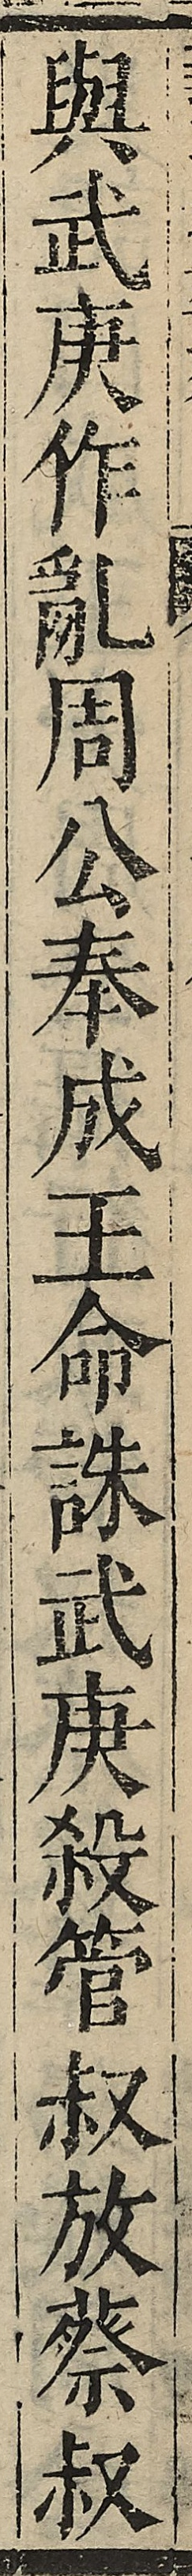與武庚作亂周公奉成王命誅武庚殺管叔放蔡叔
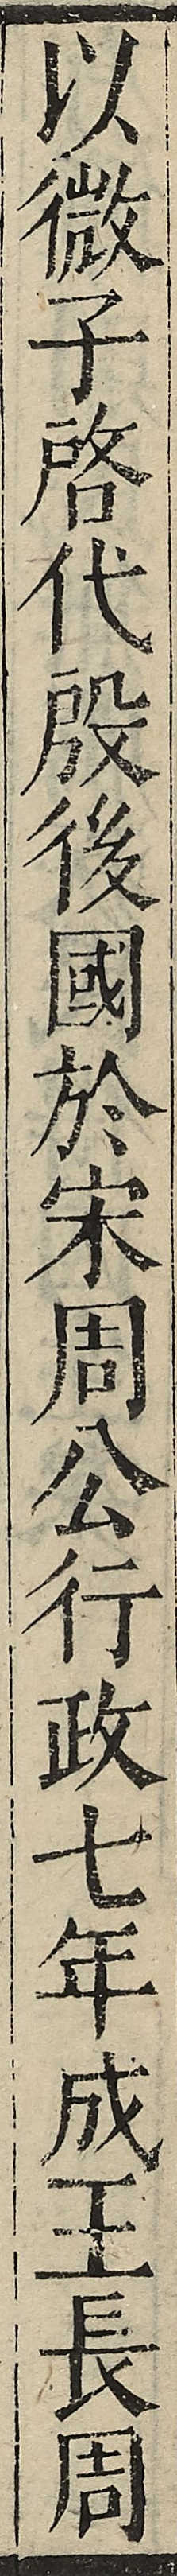以微子啟代殷後國於宋周公行政七年成王長周
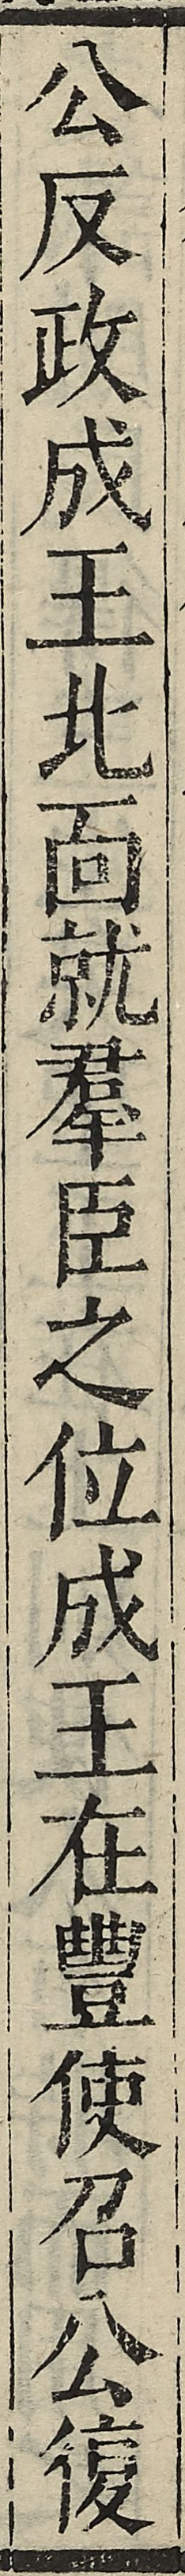公反政成王北面就羣臣之位成王在豐使召公復
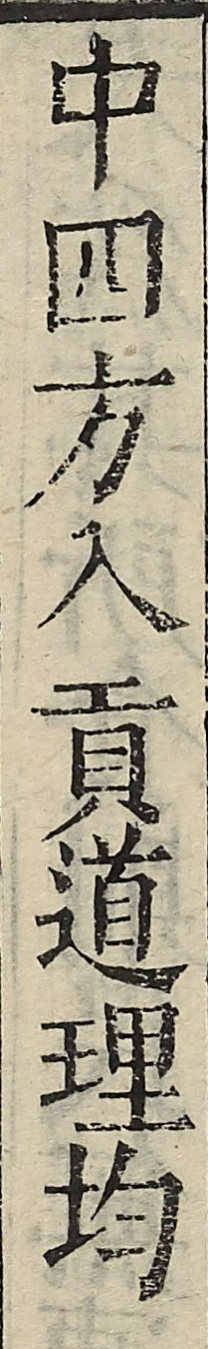中四方入貢道理均
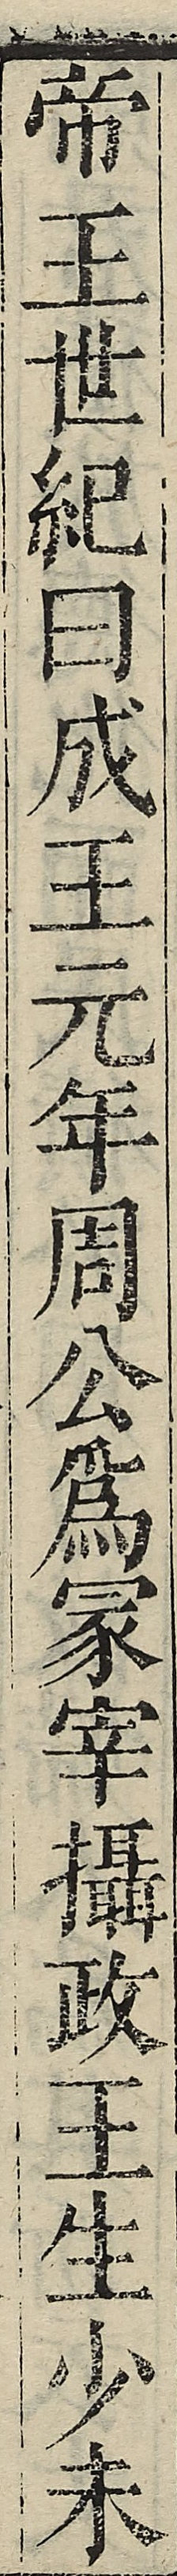帝王世紀曰成王元年周公為冢宰攝政王生少未
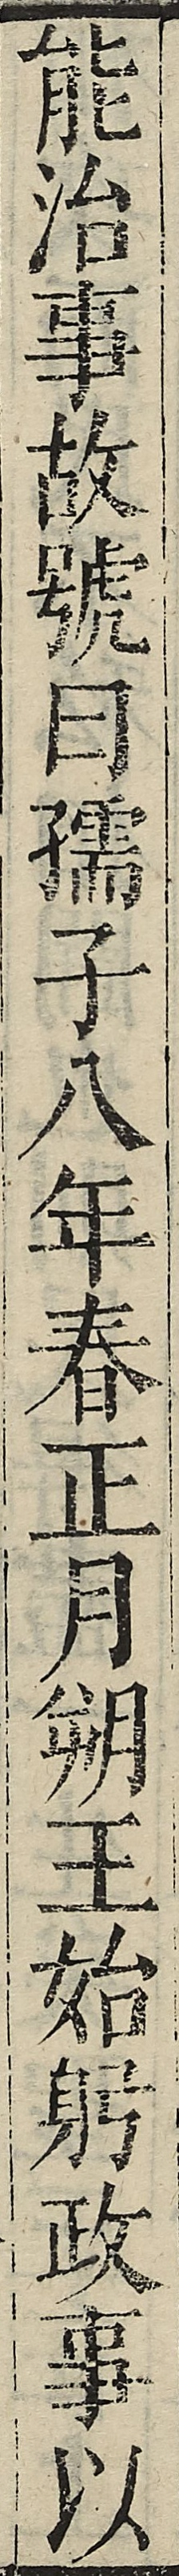能治事故號曰孺子八年春正月朔王始躬政事以
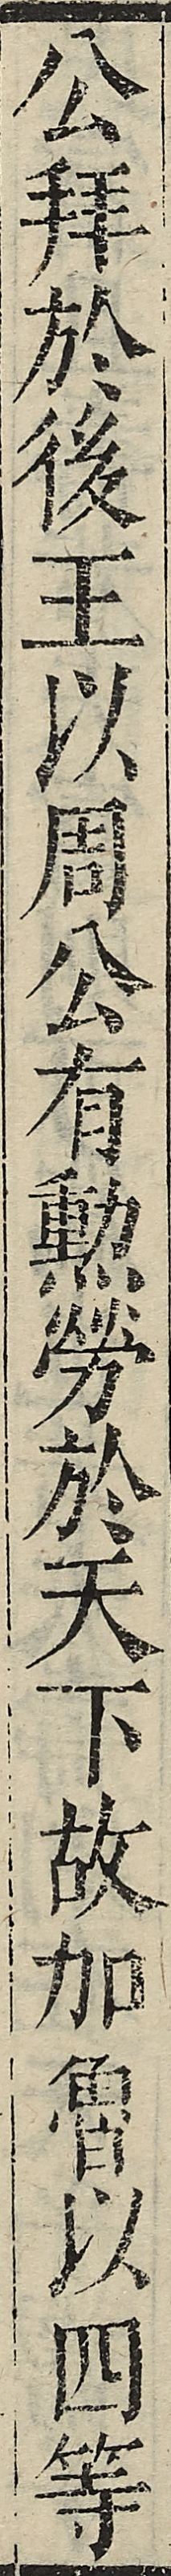公拜於後王以周公有勳勞於天下故加魯以四等
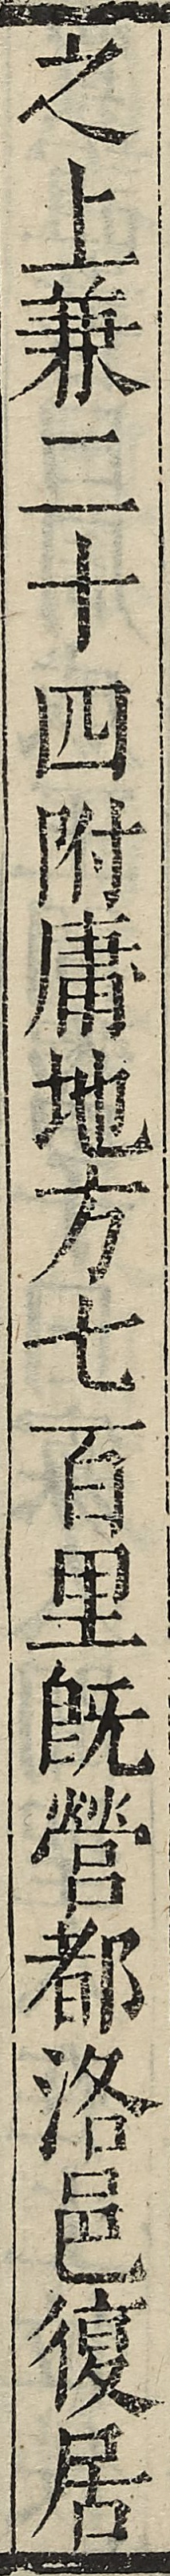之上兼二十四附庸地方七百里既營都洛邑復居
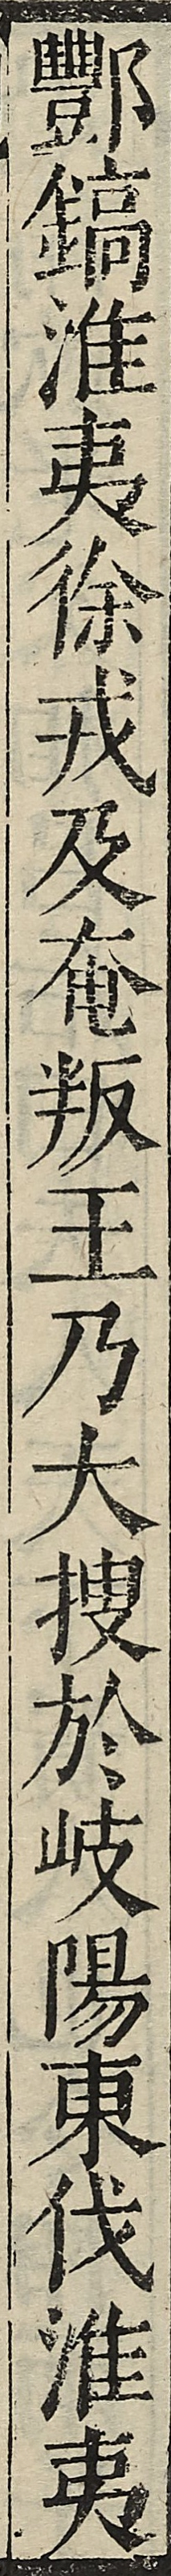酆鎬淮夷徐戎及䣍叛王乃大搜於岐陽東伐淮夷
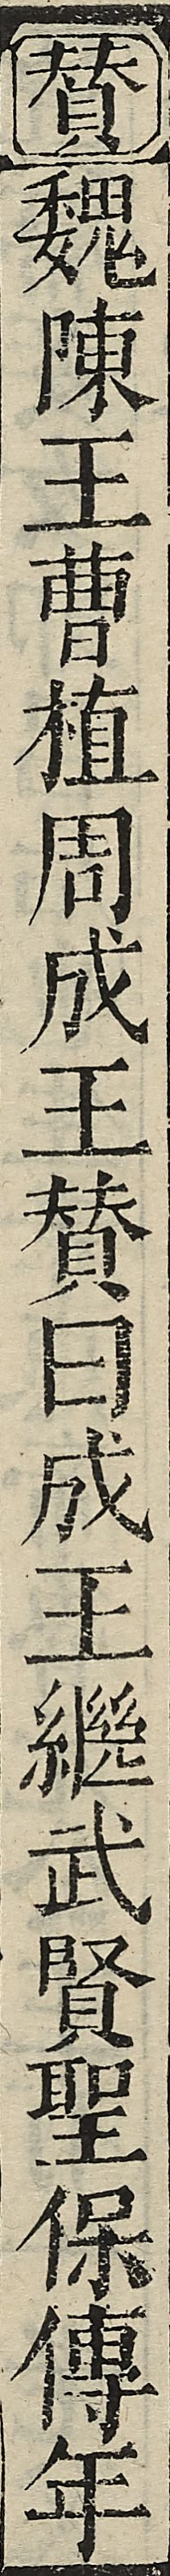贊魏陳王曹植周成王贊曰成王繼武賢聖保傅年
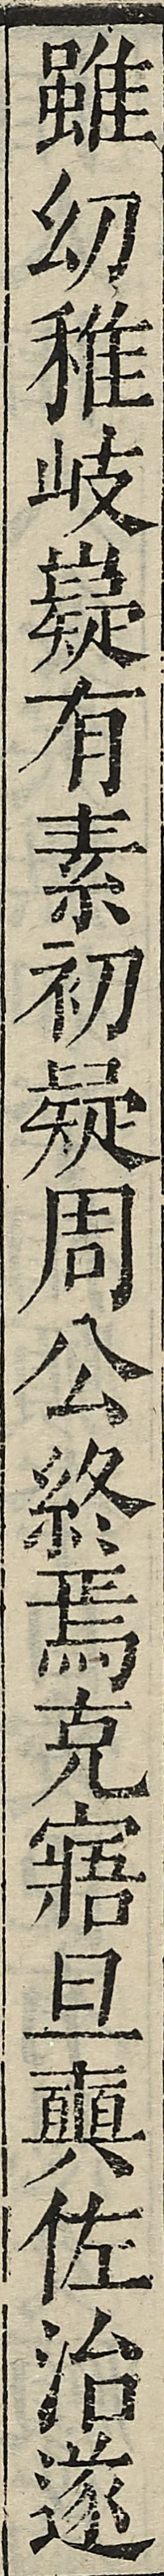雖幼稚岐嶷有素初疑周公終焉克寤旦奭佐治遂
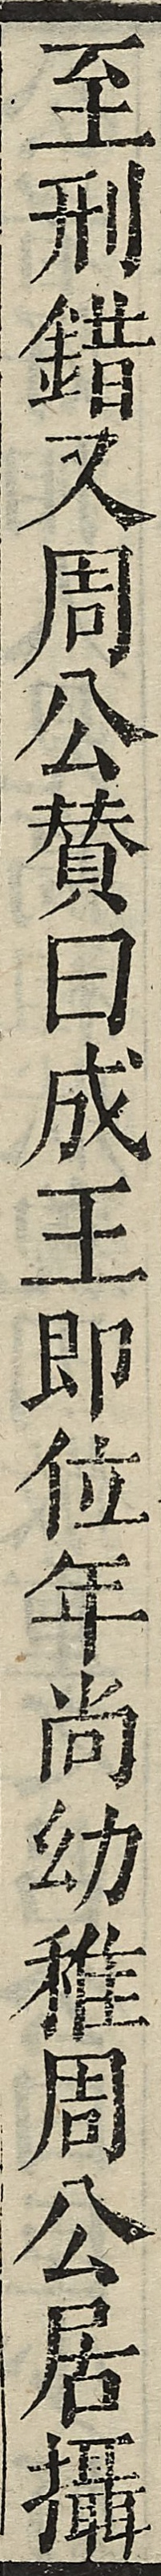至刑錯又周公贊曰成王即位年尚幼稚周公居攝
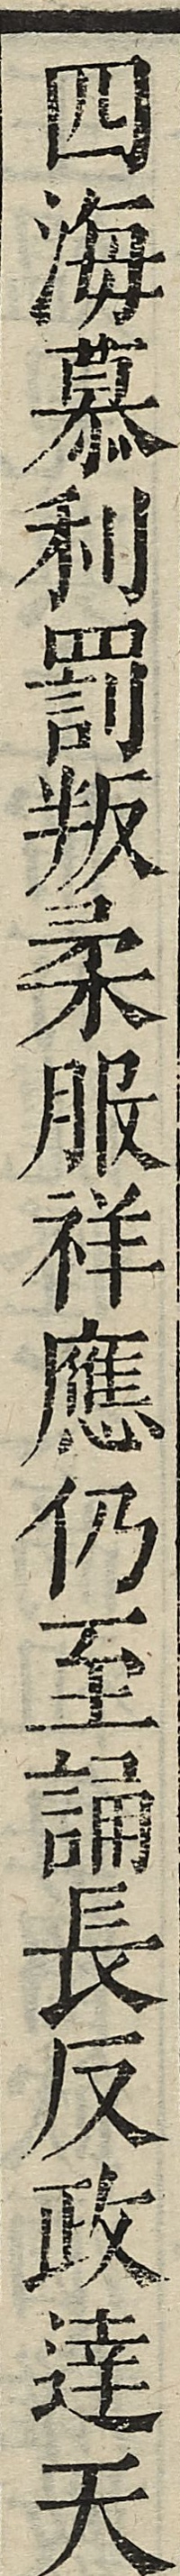四海慕利罰叛柔服祥應仍至誦長反政達天
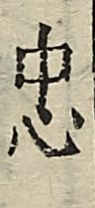忠
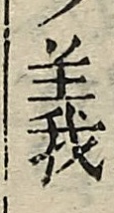義
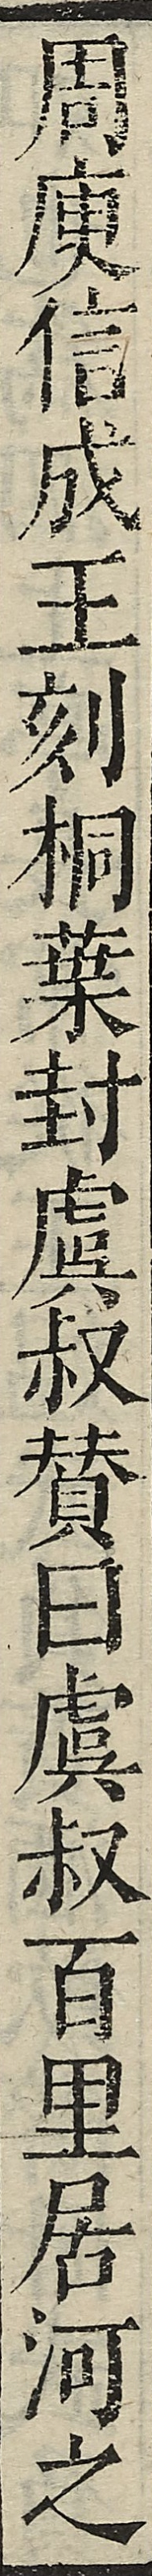周庾信成王刻桐葉封虞叔贊曰虞叔百里居河之
